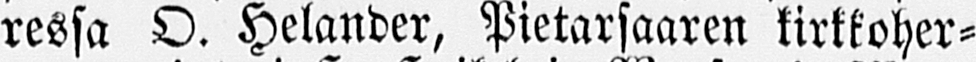ressa O. Helander, Pietarsaaren kirkkoher-
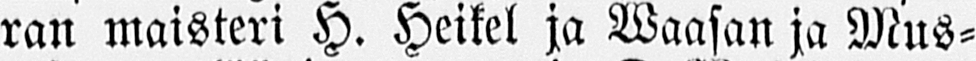ran maisteri H. Heikel ja Waasan ja Mus-
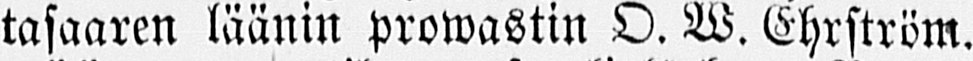tasaaren läänin prowastin O. W. Ehrström.
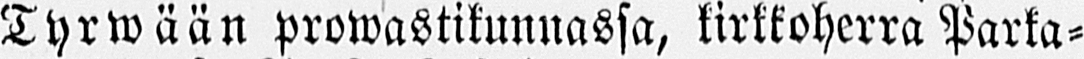Tyrwään prowastikunnassa, kirkkoherra Parka-
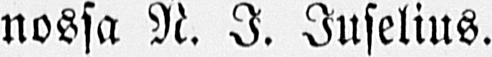nossa N. I. Juselius.
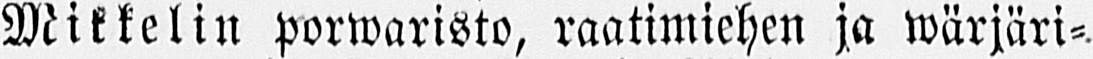Mikkelin porwaristo, raatimiehen ja wärjäri-
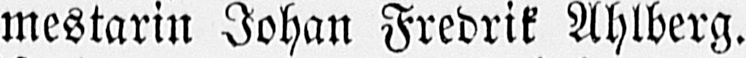mestarin Johan Fredrik Ahlberg.
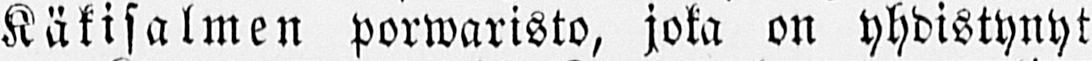Käkisalmen porwaristo, joka on yhdistynyt
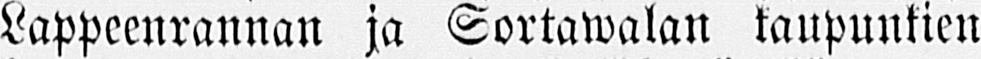Lappeenrannan ja Sortawalan kaupunkien
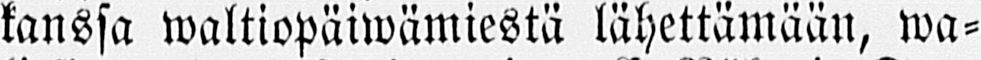kanssa waltiopäiwämiestä lähettämään, wa-
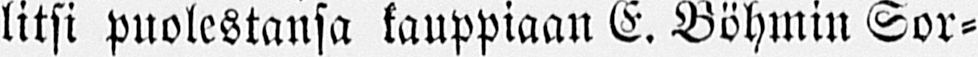litsi puolestansa kauppiaan E. Böhmin Sor-
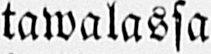tawalassa
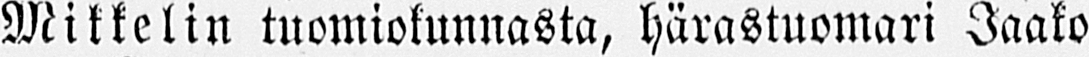Mikkelin tuomiokunnasta, härastuomari Jaako
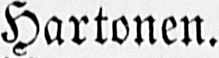Hartonen.
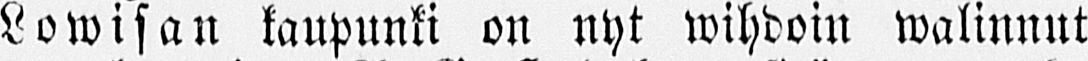Lowisan kaupunki on nyt wihdoin walinnut
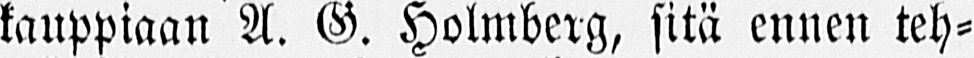kauppiaan A. G. Holmberg, sitä ennen teh-
